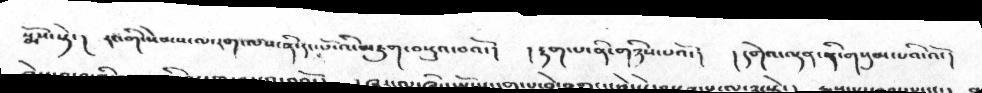སྨོས་སྟེ་།  རང་གི་སེམས་ལ་རག་ལས་ནི་དང་པོ་འི་མཇུག་བསྡུའ་བའོ་།   །རྟག་པ་ནི་གཉིས་པའོ་།   །དགེའ་ལྡན་ནི་གསུམ་པའི་འོ་།
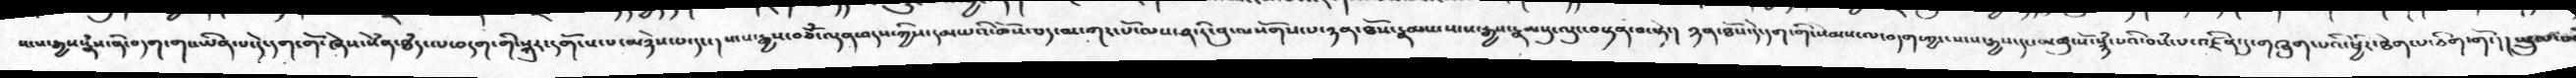སངས་རྒྱས་རྣཾས་ནི་བདག་གང་ཡིན་པ་དེ་དག་གོ་ཞེས་སེཾན་ཐཾད་ལ་བདག་གི་སྐུར་དགོངས་པ་མཉེས་པ་དང་།  སངས་རྒྱས་བཅོཾ་ལྡན་འདས་ཀྱིས་དམ་པའི་ཆོས་པད་མ་ཀར་པོ་ལས་ཤ་རི་བུ་ལསོགས་པ་ཉམ་ཐོས་རྣམས་སངས་རྒྱས་རྣམསུ་ལུང་བསྟན་པ་སྟེ་།  ཉན་ཐོས་དེ་དག་གི་སེམས་ལ་བདག་ཀྱང་སངས་རྒྱས་དང་མཚུང་སོ་སྙཾ་པའི་བསཾ་པ་འཛིན་དུ་གཞུག་པའི་ཕྱིར་ཐེག་པ་ཅིག་གོ་།། སྤྲུལ་པའི
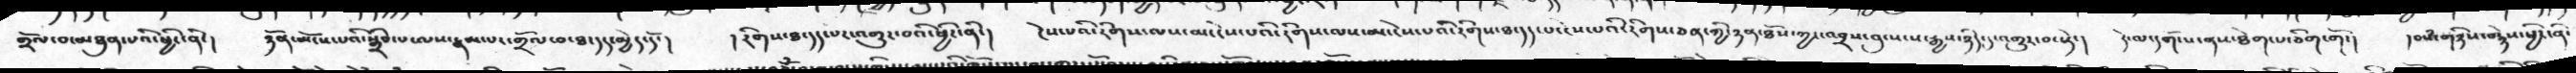གྲོལ་བ་མཐུན་པའི་ཕྱིར་ནི་།    ཉོན་མོངས་པའི་སྒྲིབ་པ་ལས་རྣམ་པར་གྲོལ་བ་ཐ་དད་མྱེད་དོ་།    ། རིགས་ཐ་དད་པར་འགྱུར་བའི་ཕྱིར་ནི་།     ངེས་པའི་རིགས་ལས་མ་ངེས་པའི་རིགས་ལས་མ་ངེས་པའི་རིགས་ཐ་དད་པ་ངེས་པའི་རིགས་ཅན་ཀྱི་ཉན་ཐོས་ཀྱང་འབྲས་བུ་སངས་རྒྱས་ཉིད་དུ་འགྱུར་བ་སྟེ་།     དེ་ལ་དགོངས་ནས་ཐེག་པ་ཅིག་གོ་།      །བསཾ་གཉིས་བརྙེས་ཕྱིར་ནི་
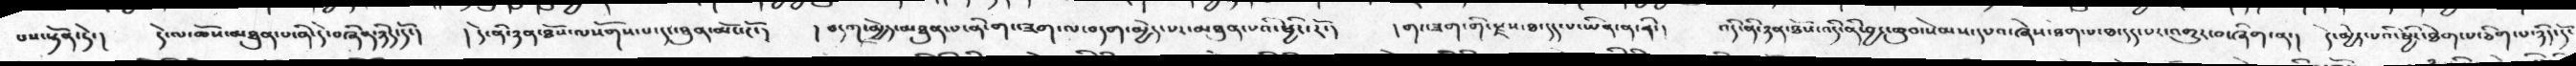པས་སྟོན་ཏེ་།     དེ་ལ་ཆོས་མཐུན་པ་ནི་དེ་བཞིན་ཉིད་དོ་།     ། དེ་ནི་ཉན་ཐོས་ལསོགས་པ་དང་ཐུན་མོང་ངོ་།     ། བདག་མྱེད་མཐུན་པ་ནི་གང་ཟག་ལ་བདག་མྱེད་པར་མཐུན་པའི་ཕྱིར་རོ་།    ། གང་ཟག་གི་རྫས་ཐ་དད་པ་ཡིན་ན་ནི་།      འདི་ནི་ཉན་ཐོས་འདི་ནི་བྱང་ཆུབ་སེམས་དཔའ་ཞེས་ཐག་པ་ཐ་དད་པར་འགྱུར་བ་ཞིག་ན་།    དེ་མྱེད་པའི་ཕྱིར་ཐེག་པ་ཅིག་པ་ཉིད་དོ་
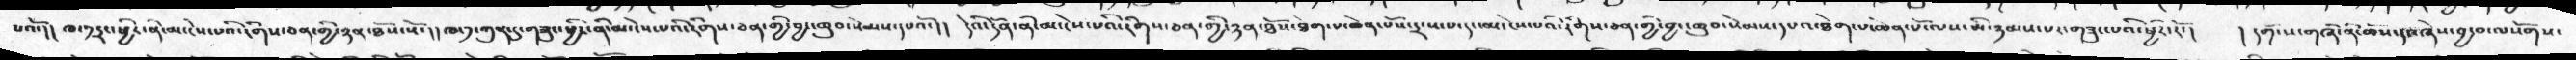པའོ།།  ཁ་༡་དྲང་ཕྱིར་ནི་མ་ངེས་པའི་རིགས་ཅན་གྱི་ཉན་ཐོས་སོ།། ཁ་༡་ཀུན་དུ་གཟུང་ཕྱིར་ནི་མ་ངེས་པའི་རིགས་ཅན་གྱི་བྱང་ཆུབ་སེམས་དཔའོ་།།  དེའི་དོན་ནི་མ་ངེས་པའི་རིགས་ཅན་གྱི་ཉན་ཐོས་ཐེག་པ་ཆེན་པོས་དྲངས་པ་དང་མ་ངེས་པའི་རིགས་ཅན་གྱི་བྱང་ཆུབ་སེམས་དཔའ་ཐེག་པ་ཆེན་པོ་ལས་མི་ཉམས་པར་གཟུང་པའི་ཕྱིར་རོ་།      ། དགོངས་གཞི་ནི་ཆོས་དང་ཞེས་བྱ་བ་ལསོགས་
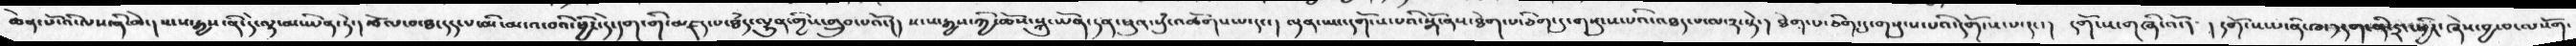ཆེན་པོ་འི་ལས་ནི་མེ་།  སངས་རྒྱས་ནི་དེ་ལྟ་མ་ཡིན་ཏེ་།  རྩོལ་བ་ཐ་དད་པ་མི་མངའ་བའི་ཕྱིར་དེ་དག་གི་མཛད་པ་ཐཾད་ལྷུན་གྱིས་གྲུབ་པའོ་།།  སངས་རྒྱས་ཀྱི་ཆོས་སྐུ་ཡོན་ཏན་ཕུན་སུཾ་འཚོགས་པ་དང་།  ལྡན་ཡང་དགོངས་པའི་སྒོ་ནས་ཐེག་པ་ཅིག་དུ་གསུངས་པའི་འཐད་པ་ལ་༢་སྟེ་། ཐེག་པ་ཅིག་དུ་གསུངས་པའི་དགོངས་པ་དང་།   དགོངས་གཞིའོ་།   ། དགོངས་པ་ནི་ཁ་༡་དག་ནི་དྲང་ཕྱིར་ཞེས་བྱ་བ་ལསོག་
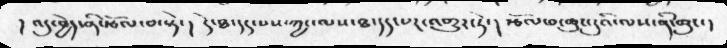། འདུ་བྱེད་ནི་རྩོལ་བ་སྟེ་།  དེ་ཐ་དད་པས་ཀྱང་ལས་ཐ་དད་པར་འགྱུར་ཏེ་།  རྩོལ་བ་ཆུང་ངུའི་ལས་ནི་ཆུང་།
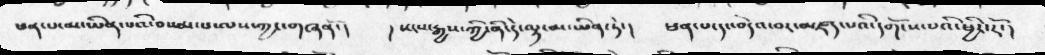ཕན་པ་མ་ཡིན་པའི་བསམ་པ་ལས་ཀྱང་གཞནོ་།     ། སངས་རྒྱས་ཀྱི་ནི་དེ་ལྟ་མ་ཡིན་ཏེ་།      ཕན་པ་དང་བདེའ་བར་མཛད་པའི་དགོངས་པའི་ཕྱིར་རོ་།
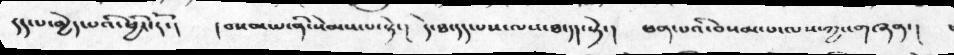དད་པ་མྱེད་པའི་ཕྱིར་རོ་།     ། བསམ་པ་ནི་སེམས་པ་སྟེ་།   དེ་ཐ་དད་པས་ལས་ཐ་དད་སྟེ་།   ཕན་པའི་བསམ་པ་ལས་ཀྱང་གཞན་།
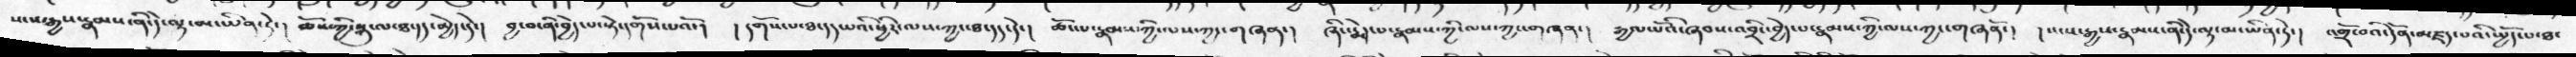སངས་རྒྱས་རྣམས་ནི་དེ་ལྟ་མ་ཡིན་ཏེ་།  ཆོས་ཀྱི་སྐུ་ལ་ཐ་དད་མྱེད་དེ་།   བྱ་བ་ནི་བྱེད་པ་སྟེ་དགོས་པའོ་།    ། དགོས་པ་ཐ་དད་པའི་ཕྱིར་ལས་ཀྱང་ཐ་དད་དེ་།   ཚོང་པ་རྣམས་ཀྱི་ལས་ཀྱང་གཞན་།   ཞིང་རྨེད་པ་རྣམས་ཀྱི་ལས་ཀྱང་གཞན་།  རྒྱལ་པོའི་ཞབས་འབྲིང་བྱེད་པ་རྣམས་ཀྱི་ལས་ཀྱང་གཞནོ་།   ། སངས་རྒྱས་རྣམས་ནི་དེ་ལྟ་མ་ཡིན་ཏེ་།    འགྲོ་བའི་དོན་མཛད་པའི་ཡྱོད་པ་ཐ་
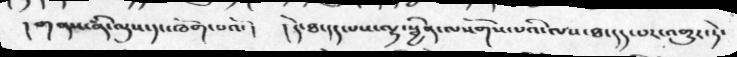གནས་ནི་ལུས་དང་ཁོག་པའོ་།    ། དེ་ཐ་དད་པས་ལྷ་སྦྱིན་ལསོགས་པའི་ལས་ཐ་དད་པར་འགྱུར་ཏེ་
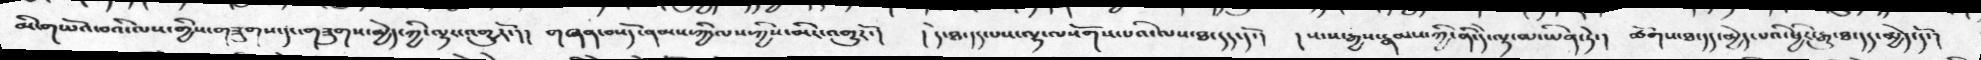མི་གཡོ་བའི་ལས་གྱིས་གཟུགས་དང་གཟུགས་མྱེད་ཀྱི་ལྷར་འགྱུརོ་།།  གཞན་བསོད་ནམས་ཀྱི་ལས་ཀྱིས་མིར་འགྱུརོ་།    ། དེ་ཐ་དད་པས་ལྷ་ལསོགས་པའི་ལས་ཐ་དད་དོ་།   ། སངས་རྒྱས་རྣམས་ཀྱི་ནི་དེ་ལྷ་མ་ཡིན་ཏེ་།   ཚོགས་ཐ་དད་མྱེད་པའི་ཕྱིར་རྒྱུ་ཐ་དད་མྱེད་དོ་།
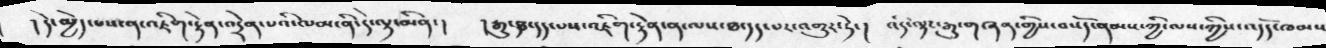། དེ་མྱེད་པས་ན་འཇིག་རྟེན་འདྲེན་པའི་ལམ་ནི་དེ་ལྟ་མིན་།    ། རྒྱུ་ཐ་དད་པས་འཇིག་རྟེན་ན་ལས་ཐ་དད་པར་འགྱུར་ཏེ་།   འདི་ལྟར་རྒྱུ་གཞན་གྱིས་བསོད་ནམས་ཀྱི་ལས་ཀྱིས་འདོད་ཁམས
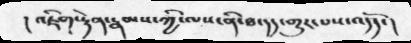། འཇིག་རྟེན་རྣམས་ཀྱི་ལས་ནི་ཐ་དད་གྱུར་པས་འདོད་།
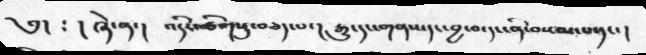༅།  ༴  ། ཞེ་ན་།    འདིར་ཚིག་སུ་བཅད་པ་། རྒུ་དང་གནས་དང་བྱ་བ་དང་ནི་བསམ་པ་དང་།
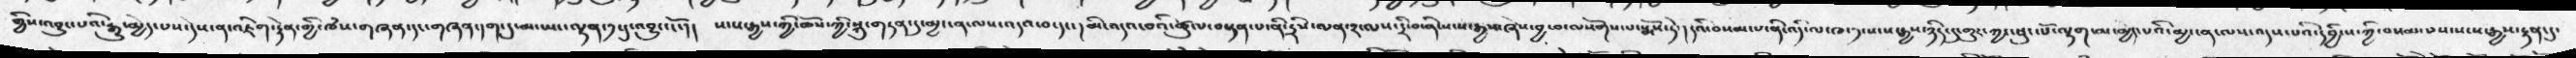གྱིས་འབྱུང་པའི་རྒྱུ་མྱེད་པས་དེས་ན་འཇིག་རྟེན་གྱི་ཁཾས་གཞན་དང་གཞན་དག་དུ་མ་ཡང་ལྷན་༡་དུ་འབྱུང་ངོ་།།  སངས་རྒྱས་ཀྱི་ཆོས་ཀྱི་སྐུ་གཏན་དུ་མྱ་ངན་ལས་འདའ་བ་དང་།མི་འདའ་བའི་ཚུལ་བསྟན་པ་ནི་དྲིས་ལན་༢་ལས་དྲི་བ་ནི་སངས་རྒྱས་ཞེས་བྱ་བ་ལསོགས་པ་སྨོས་ཏེ་། དའི་བསམ་པ་ནི་འདི་ལ་ཁ་༡་སངས་རྒྱས་ཉིད་དུ་གྱུར་ཀྱང་ཕུང་པོ་ལྷག་མ་མྱེད་པའི་མྱ་ངན་ལས་འདས་པའི་དབྱིངས་ཀྱི་བསམ་པས་སངས་རྒྱས་རྟན་དུ་
